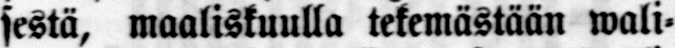sestä, maaliskuulla tekemästään wali-
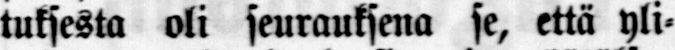tuksesta oli seurauksena se, että yli-
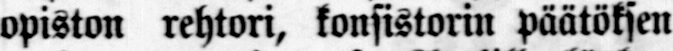opiston rehtori, konsistorin päätöksen
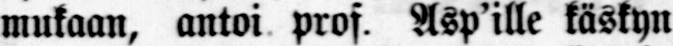mukaan, antoi prof. Asp'ille käskyn
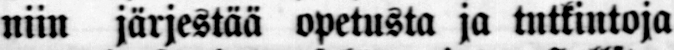niin järjestää opetusta ja tntkintoja
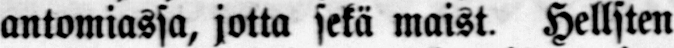antomiassa, jotta sekä maist. Hellsten
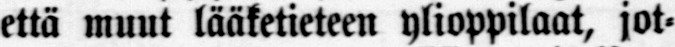että muut lääketieteen ylioppilaat, jot-
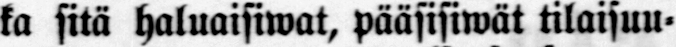ka sitä haluaisiwat, pääsisiwät tilaisuu-
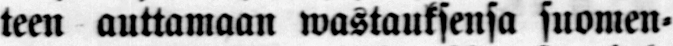teen auttamaan wastauksensa suomen-
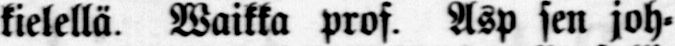kielellä. Waikka prof. Asp sen joh-
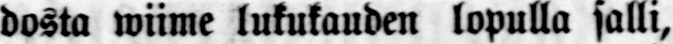dosta wiime lukukauden lopulla salli,
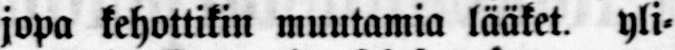jopa kehottikin muutamia lääket. yli-
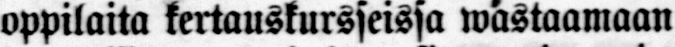oppilaita kertauskursseissa wastaamaan
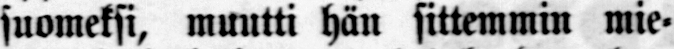suomeksi, muutti hän sittemmin mie-
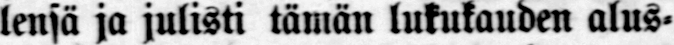lensä ja julisti tämän lukukauden alus-
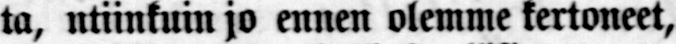ta, ntiinkuin jo ennen olemme kertoneet,
